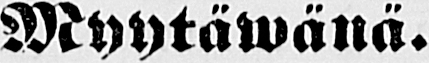Myytäwänä.
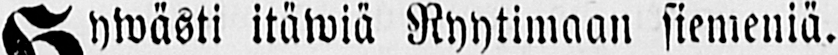Hywästi itäwiä Ryytimaan siemeniä.
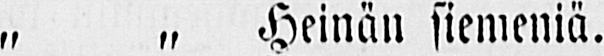„ „ Heinän siemeniä.
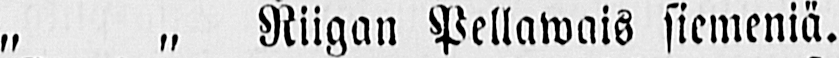„ „ Riigan Pellawais siemeniä.
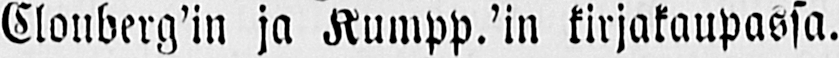Clonberg'in ja Kumpp.’in kirjakaupassa.
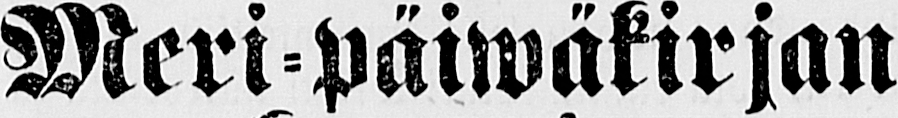Meri-päiwäkirjan
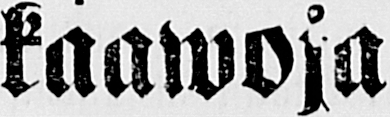kaawoja
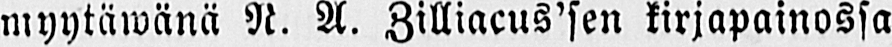myytäwänä N. A. Zilliacus’sen kirjapainossa.
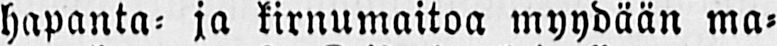Kaislahden hapanta- ja kirnumaitoa myydään ma-
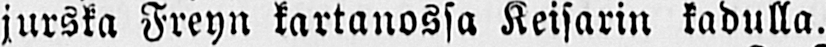jursta Freyn kartanossa Keisarin kadulla.
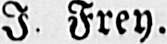I. Frey.
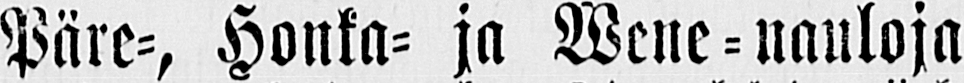Päre-, Honka- ja Wene-nauloja
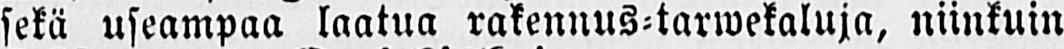sekä useampaa laatua rakennus-tarwekaluja, niinkuin
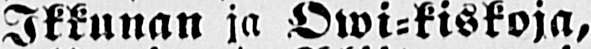Ikkunan ja Owi-kiskoja,
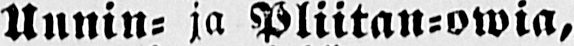Uunin- ja Pliitan-owia,
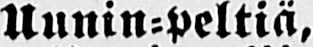Uunin-peltiä,
